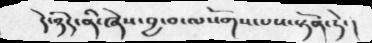དེ་ཉིད་ནི་ཞེས་བྱ་བ་ལསོགས་པས་སྟོན་ཏེ་།
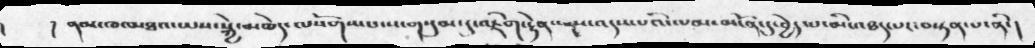།     ། ནམ་ཁ་མཐའ་ཡས་སྐྱེ་མཆེད་ལསོགས་པ་ས་གསུམ་དུ་འཇིག་རྟེན་ལས་འདས་པའི་ལམ་མངོན་དུ་བྱེད་པ་མི་འཐད་པར་བསྟན་པ་ནི་།
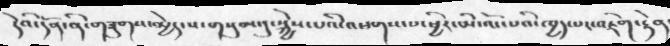དེའི་དོན་ནི་གཟུགས་མྱེད་ས་གསུམ་དུ་སྐྱེས་པའི་འཕགས་པ་ཕྱིར་མི་འོང་པའི་ཁྱད་པར་འཇིག་རྟེན་
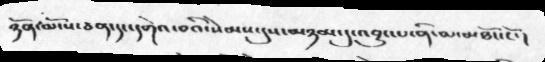ཉོན་མོངས་ཅན་དང་དགེའ་བའི་སེམས་དུས་མཉམ་དུ་འབྱུང་པ་ནི་མ་མཐོང་ངོ་།
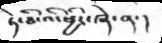ཏེ་ཅི་འི་ཕྱིར་ཞེ་ན་།
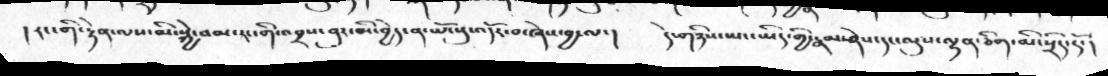།རང་གི་རྟེན་ལས་མི་སྐྱེ་བམ་རང་གི་འབྲས་བུར་མི་བྱེད་ན་ཡོངསུ་འདོར་བ་ཞེས་བྱ་ལ་།  དེ་གཉིས་ཡང་ཡིད་གྱི་རྣམ་ཤེས་དང་ལུས་ལྷན་ཅིག་མི་སྲིད་དོ་།
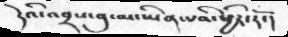དེའི་འབྲས་བུ་མ་ཡིན་པའི་ཕྱིར་རོ་།
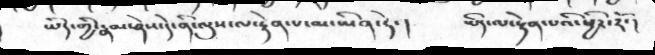ཡིད་གྱི་རྣམ་ཤེས་དེ་ནི་ལུས་ལ་རྟེན་པ་མ་ཡིན་ཏེ་།  ཡིད་ལ་རྟེན་པའི་ཕྱིར་རོ་།
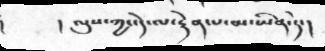།      །ལུས་ཀྱང་དེ་ལ་རྟེན་པ་མ་་ཡིན་ཏེ་།
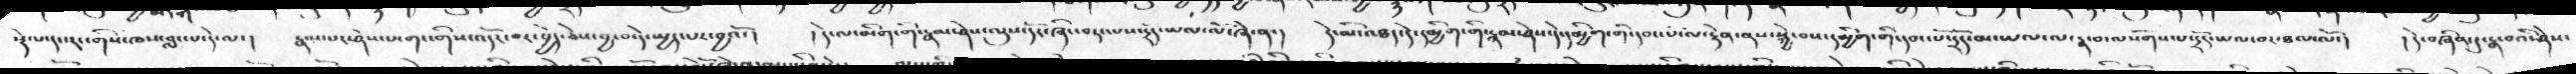སྡེ་པ་དང་རང་གིས་ཁས་བླང་པ་དེ་ལ་།  རྣམ་པར་ཤེས་པ་གང་གིས་འདོར་བར་བྱེད་ཅེས་བྱ་བ་དེ་སྤྱད་པར་བྱའོ་།  ། དེ་ལ་མིག་གི་རྣམ་ཤེས་ལུས་དོར་ཞིང་བཏང་པས་དྲོད་ཡལ་ལོ་ཞེ་ན་།  དེ་མི་འཐད་དེ་དམྱིག་གི་རྣམ་ཤེས་དེ་དམྱིག་གི་དབང་པོ་ལ་རྟེན་ནས་སྐྱེ་བས་དམྱིག་གི་དབང་པོ་དྲོད་མ་ཡལ་ལ་རྣ་བ་ལསོགས་པ་དྲོད་ཡལ་བར་ཐལ་ལོ་།   ། དེ་བཞིན་དུ་རྣ་བའི་ཤེས་
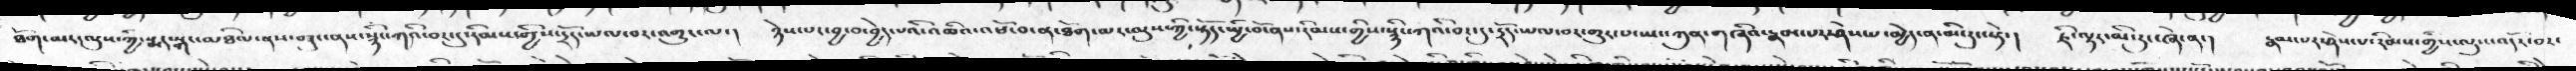ཐོག་མར་ལུས་ཀྱི་སྨད་སྐང་མཐིལ་ནས་བཟུང་ནས་སྙིང་ཀའི་བར་དུ་རིམས་གྱིས་དྲོད་ཡལ་བར་འགྱུར་ལ་།  ཉེས་པར་བྱ་བ་བྱེད་པའི་འཆིའ་འཕོ་བ་ན་ཐོག་མར་ལུས་ཀྱི་སྟོད་སྤྱི་བོ་ནས་རིམས་གྱིས་སྙིང་ཀའི་བར་དུ་དྲོད་ཡལ་བར་གྱུར་པ་ཡང་ཀུན་གཞིའ་རྣམ་པར་ཤེས་པ་མྱེད་ན་མི་རུང་སྟེ་།  ཇི་ལྟར་མི་རུང་ཞེ་ན་། རྣམ་པར་ཤེས་པ་རིམས་གྱིས་ལུས་འདོར་བར་
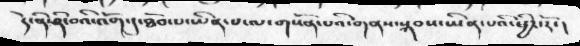དེ་ནི་ཤི་་བའི་འོག་དུ་ཐོབ་པ་ཡིན་པ་ལ་གསོན་པའི་གནས་སྐབས་ཡིན་པའི་ཕྱིར་རོ་།
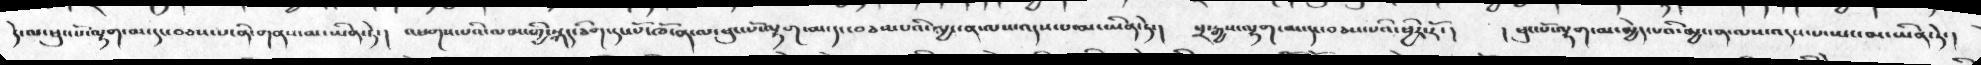དེ་ལ་ཕུང་པོ་ལྷག་མ་དང་བཅས་པ་ནི་གནས་མ་ཡིན་ཏེ་།    འཕགས་པའི་ལམ་གྱི་སྐད་ཅིག་དང་པོ་ཁོ་ན་ལ་ཕུང་པོ་ལྷག་མ་དང་བཅས་པའི་མྱ་ངན་ལས་འདས་པ་མ་ཡིན་ཏེ་།   ཕྲ་རྒྱས་ལྷག་མ་དང་བཅས་པའི་ཕྱིར་རོ་།    ། ཕུང་པོ་ལྷག་མ་མྱེད་པའི་མྱ་ངན་ལས་འདས་པ་ཡང་མ་ཡིན་ཏེ་།
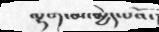ལྷག་མ་མྱེད་པའོ་།
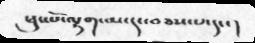ཕུང་པོ་ལྷག་མ་དང་བཅས་པ་དང་།
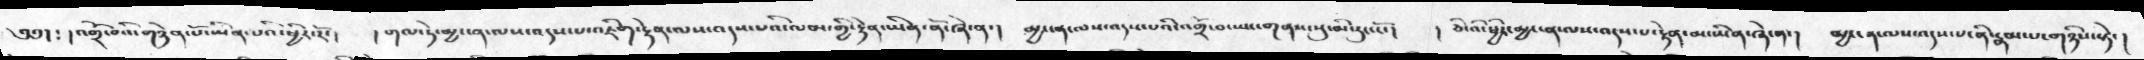༄༅།  ༴  ། འགྲོ་བའི་གཉེན་པོ་མ་ཡིན་པའི་ཕྱིར་རོ་།   ། གལ་ཏེ་མྱ་ངན་ལས་འདས་པ་འཇིག་རྟེན་ལས་འདས་པའི་ལམ་གྱི་རྟེན་ཡིན་ནོ་ཞེ་ན་།   མྱ་ངན་ལས་འདས་པའི་འགྲོ་བ་ཡང་གནས་སུ་མི་རུང་ངོ་།     ། ཅི་འི་ཕྱིར་མྱ་ངན་ལས་འདས་པ་རྟེན་མ་ཡིན་ཞེ་ན་།   མྱ་ངན་ལས་འདས་པ་ནི་རྣམ་པ་གཉིས་སྟེ་ །
